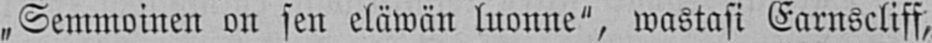„Semmoinen on sen eläwän luonne", wastasi Earnscliff,
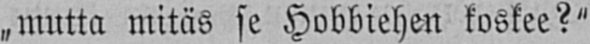„mutta mitäs se Hobbiehen koskee?"
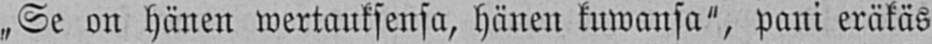„Se on hänen wertauksensa, hänen kuwansa", pani eräkäs
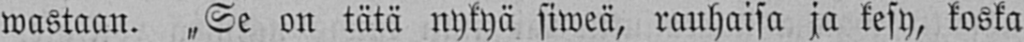wastaan. „Se on tätä nykyä siweä, rauhaisa ja kesy, koska
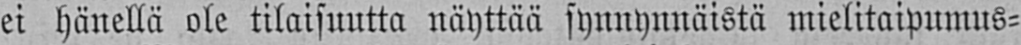ei hänellä ole tilaisuutta näyttää synnynnäistä mielitaipumus-
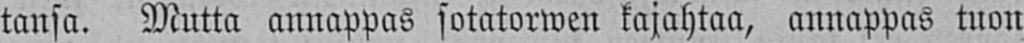tansa. Mutta annappas sotatorwen kajahtaa, annappas tuon
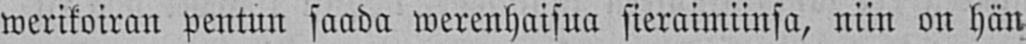werikoiran pentun saada werenhaisua sieraimiinsa, niin on hän
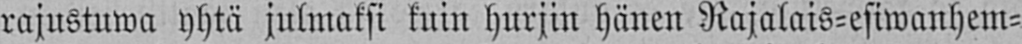rajustuwa yhtä julmaksi kuin hurjin hänen Rajalais-esiwanhem-
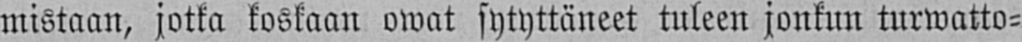mistaan, jotka koskaan owat sytyttäneet tuleen jonkun turwatto-
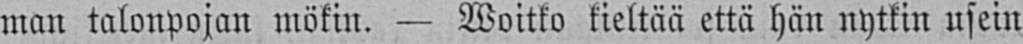man talonpojan mökin. — Woitko kieltää että hän nytkin usein
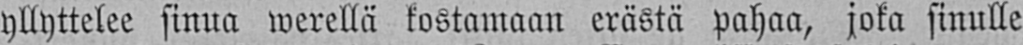yllyttelee sinua werellä kostamaan erästä pahaa, joka sinulle
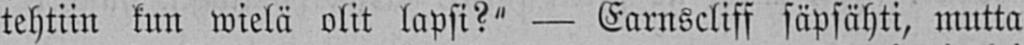tehtiin kun wielä olit lapsi?" — Earnscliff säpsähti, mutta
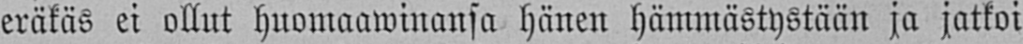eräkäs ei ollut huomaawinansa hänen hämmästystään ja jatkoi
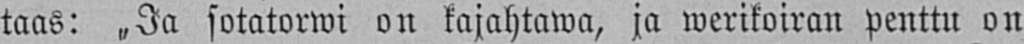taas: „Ja sotatorwi on kajahtawa, ja werikoiran penttu on
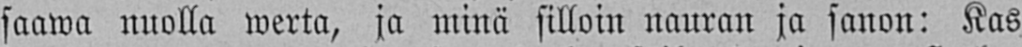saawa nuolla werta, ja minä silloin nauran ja sanon: Kas
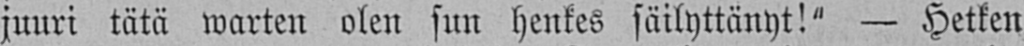juuri tätä warten olen sun henkes säilyttänyt!" — Hetken
